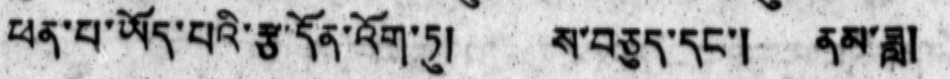ཕན་པ་ཡོད་པའི་རྩ་དོན་འོག་ཏུ། ས་བཅུད་དང་། ནམ་ཟླ།
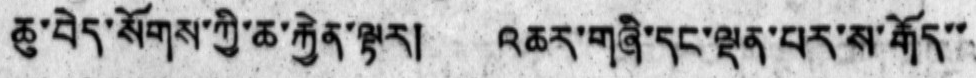ཆུ་བེད་སོགས་ཀྱི་ཆ་རྐྱེན་ལྟར། འཆར་གཞི་དང་ལྡན་པར་ས་རྒོད་་
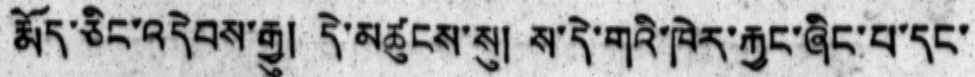རྨོད་ཅིང་འདེབས་རྒྱུ། དེ་མཚུངས་སུ། ས་དེ་གའི་ཁེར་རྐྱང་ཞིང་པ་དང་
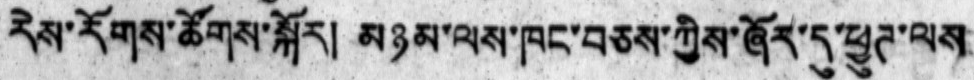རེས་རོགས་ཚོགས་སྐོར། མཉམ་ལས་ཁང་བཅས་ཀྱིས་ཞོར་དུ་ཕྱུཊ་ལས
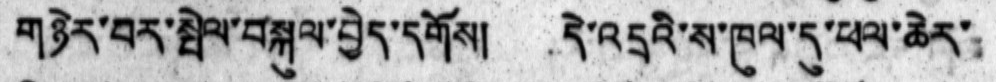གཉེར་བར་སྤེལ་བསྐུལ་བྱེད་དགོས། དེ་འདྲའི་ས་ཁུལ་དུ་ཕལ་ཆེར་
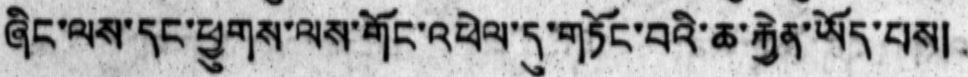ཞིང་ལས་དང་ཕྱུགས་ལས་གོང་འཕེལ་དུ་གཏོང་བའི་ཆ་རྐྱེན་ཡོད་པས།
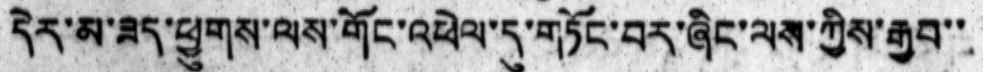དེར་མ་ཟད་ཕྱུགས་ལས་གོང་འཕེལ་དུ་གཏོང་བར་ཞིང་ལས་ཀྱིས་རྒྱབ་་
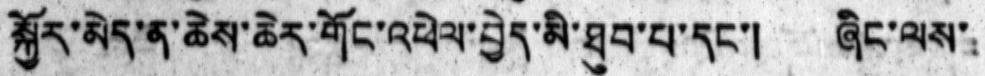སྐྱོར་མེད་ན་ཆེས་ཆེར་གོང་འཕེལ་བྱེད་མི་ཐུབ་པ་དང་། ཞིང་ལས་
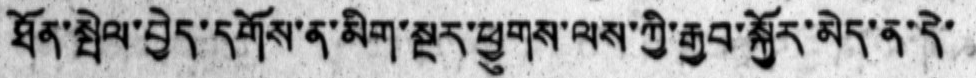ཐོན་སྤེལ་བྱེད་དགོས་ན་མིག་སྔར་ཕྱུགས་ལས་ཀྱི་རྒྱབ་སྐྱོར་མེད་ན་དེ་
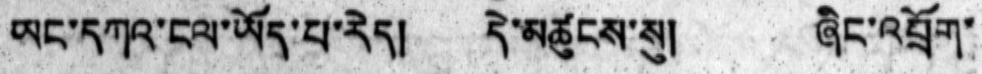ཡང་དཀའ་ངལ་ཡོད་པ་རེད། དེ་མཚུངས་སུ། ཞིང་འབྲོག་
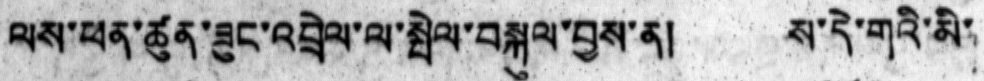ལས་ཕན་ཚུན་ཟུང་འབྲེལ་ལ་སྤེལ་བསྐུལ་བྱས་ན། ས་དེ་གའི་མི་
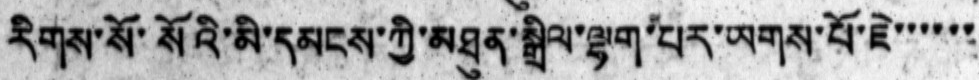རིགས་སོ་སོའི་མི་དམངས་ཀྱི་མཐུན་སྒྲིལ་ལྷག་པར་ཡགས་པོ་ཇེ་་་་་་
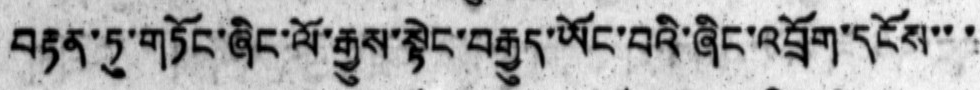བརྟན་ཏུ་གཏོང་ཞིང་ལོ་རྒྱུས་སྟེང་བརྒྱུད་ཡོང་བའི་ཞིང་འབྲོག་དངོས་་་
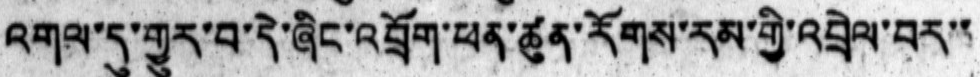འགལ་དུ་གྱུར་བ་དེ་ཞིང་འབྲོག་ཕན་ཚུན་རོགས་རམ་གྱི་འབྲེལ་བར་་
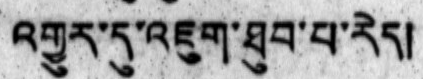འགྱུར་དུ་འཇུག་ཐུབ་པ་རེད།
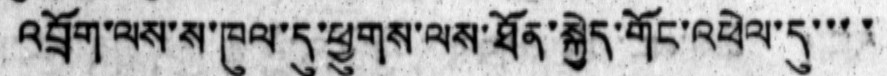འབྲོག་ལས་ས་ཁུལ་དུ་ཕྱུགས་ལས་ཐོན་སྐྱེད་གོང་འཕེལ་དུ་་་་
